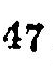47
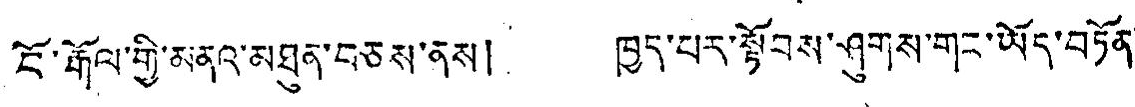ངོ་རྒོལ་གྱི་མནའ་མཐུན་བཅས་ནས། ཁྱད་པར་སྟོབས་ཤུགས་གང་ཡོད་བཏོན་
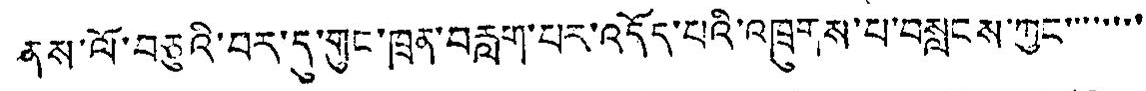ནས་ལོ་བཅུའི་བར་དུ་གུང་ཁྲན་བརླག་པར་འདོད་པའི་འཁྲུགས་པ་བསླངས་ཀྱང་་་་་་་་
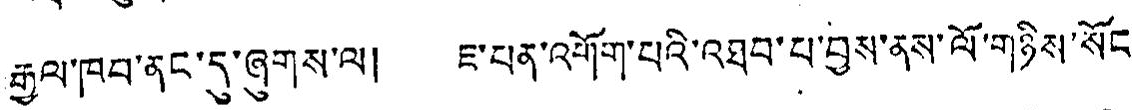རྒྱལ་ཁབ་ནང་དུ་ཞུགས་ལ། ཇ་པན་འགོག་པའི་འཐབ་པ་བྱས་ནས་ལོ་གཉིས་སོང
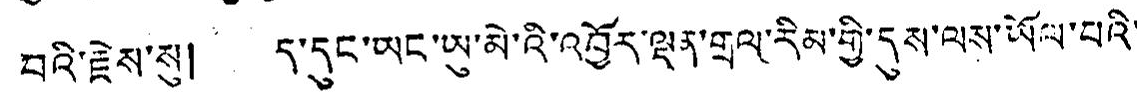བའི་རྗེས་སུ། ད་དུང་ཡང་ཡུ་མེ་འི་འབྱོར་ལྡན་གྲལ་རིམ་གྱི་དུས་ལས་ཡོལ་པའི་
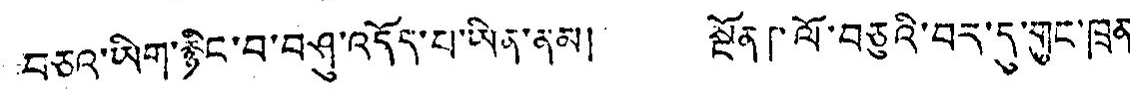བཅའ་ཡིག་རྙིང་བ་བཤུ་འདོད་པ་ཡིན་ནམ། སྔོན「ལོ་བཅུའི་བར་དུ་གུང་ཁྲན་
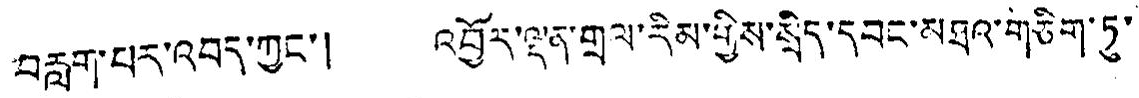བརླག་པར་འབད་ཀྱང་། འབྱོར་ལྡན་གྲལ་རིམ་གྱིས་སྲིད་དབང་མཐའ་གཅིག་ཏུ་
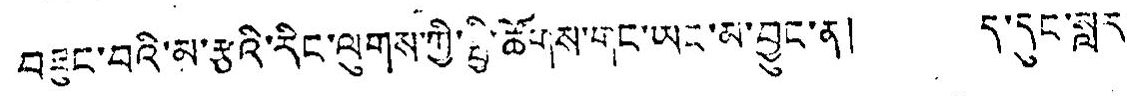བཟུང་བའི་མ་རྩའི་རིང་ལུགས་ཀྱི་སྤྱི་ཚོགས་གང་ཡར་མ་བྱུང་ན། ད་དུང་སླར་
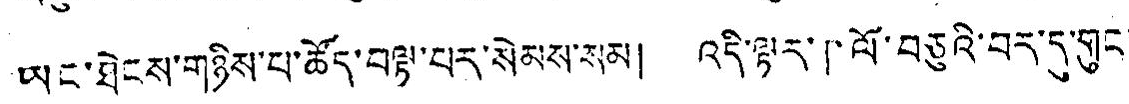ཡང་ཐེངས་གཉིས་པ་ཚོད་བལྟ་པར་སེམས་སམ། འདི་ལྟར「ལོ་བཅུའི་བར་དུ་གུང་
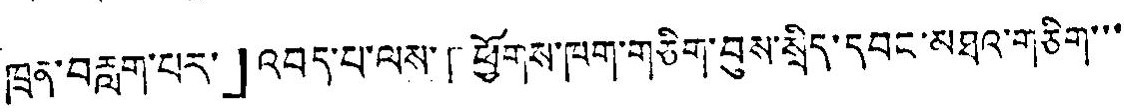ཁྲན་བརླག་པར་」འབད་པ་ལས་「ཕྱོགས་ཁག་གཅིག་བུས་སྲིད་དབང་མཐའ་གཅིག་་་
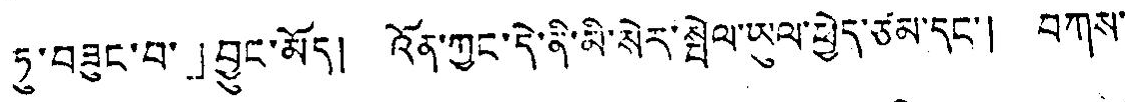ཏུ་བཟུང་བ་」བྱུང་མོད། འོན་ཀྱང་དེ་ནི་མི་སེར་སྤེལ་ཡུལ་ཕྱེད་ཙམ་དང་། བཀས་
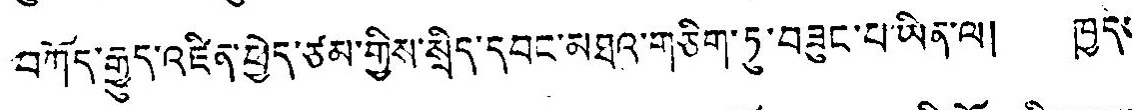བཀོད་རྒྱུད་འཛིན་ཕྱེད་ཙམ་གྱིས་སྲིད་དབང་མཐའ་གཅིག་ཏུ་བཟུང་པ་ཡིན་ལ། ཁྱད་
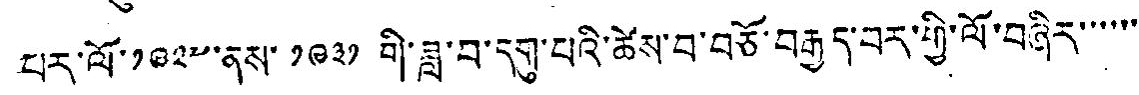པར་ལོ་༡༩༢༧་ནས་ ༡༩༢༧ གི་ཟླ་བ་དགུ་པའི་ཚེས་བ་བཅོ་བརྒྱད་བར་གྱི་ལོ་བཞིར་་་་་་
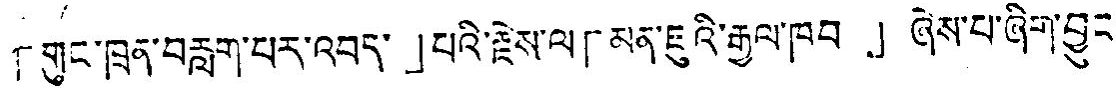「གུང་ཁྲན་བརླག་པར་འབད་」པའི་རྗེས་ལ「མན་ཇུའི་རྒྱལ་ཁབ་」ཞེས་པ་ཞིག་བྱུང་
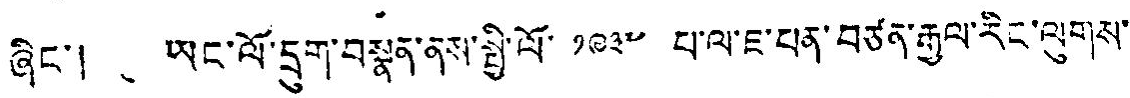ཞིང་། ཡང་ལོ་དྲུག་བསྣན་ནས་སྤྱི་ལོ་ ༡༩༣༧ པ་ལ་ཇ་པན་བཙན་རྒྱལ་རིང་ལུགས་
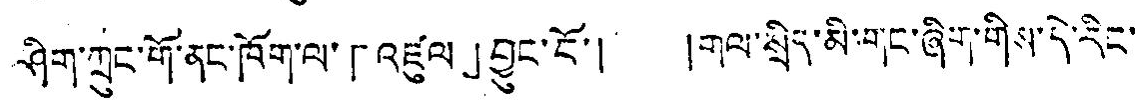ཤིག་ཀྲུང་གོ་ནང་ཁོག་ལ་「འཛུལ」བྱུང་ངོ་། །གལ་སྲིད་མི་གང་ཞིག་གིས་དེ་རིང་་
